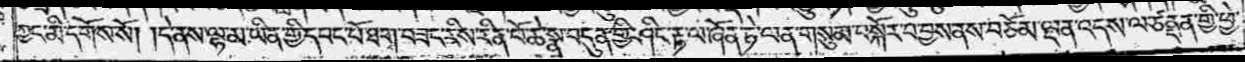ཀྱང་མི་དགོས་སོ། །དེ་ནས་ལྷ་མ་ཡིན་གྱི་དབང་པོ་ཐག་བཟང་རིས་རིན་པོ་ཆེ་སྣ་བདུན་གྱི་ཤིང་རྟ་ལ་ཞོན་ཏེ་ལན་གསུམ་བསྐོར་བ་བྱས་ནས་བཅོམ་ལྡན་འདས་ལ་ཙནྡན་གྱི་ཕྱེ་
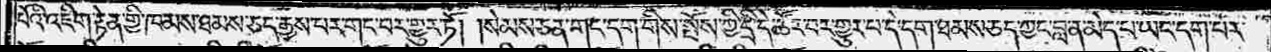པོའི་འཇིག་རྟེན་གྱི་ཁམས་ཐམས་ཅད་རྒྱས་པར་གང་བར་གྱུར་ཏོ། །སེམས་ཅན་གང་དག་གིས་སྤོས་ཀྱི་དྲི་དེ་ཚོར་བར་གྱུར་པ་དེ་དག་ཐམས་ཅད་ཀྱང་བླ་ན་མེད་པ་ཡང་དག་པར་
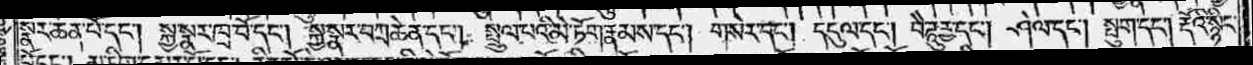སྣར་ཆེན་པོ་དང༌། སྐྱ་སྣར་ཁྲ་བོ་དང༌། སྐྱ་སྣར་བཀྲ་ཆེན་དང༌། སྤྲུལ་པའི་མེ་ཏོག་རྣམས་དང༌། གསེར་དང༌། དངུལ་དང༌། བཻ་ཌཱུཪྻ་དང༌། ཤེལ་དང༌། སྤུག་དང༌། རྡོའི་སྙིང་
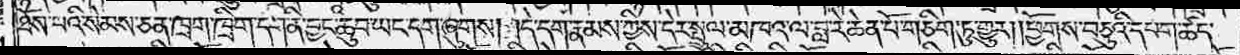ཐོས་པའི་སེམས་ཅན་ཁྲག་ཁྲིག་དག་ནི་བྱང་ཆུབ་ཡང་དག་ཞུགས། །དེ་དག་རྣམས་ཀྱིས་དེར་སྤྲུལ་མཁའ་ལ་བླ་རེ་ཆེན་པོ་གཅིག་ཏུ་གྱུར། །ཕྱོགས་བཅུའི་དཔག་ཚད་
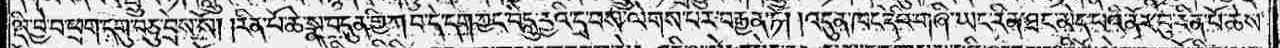ལྡི་བྱེ་བ་ཕྲག་དགུ་བཅུ་བྲེས་སོ། །རིན་པོ་ཆེ་སྣ་བདུན་གྱི་ཀ་བ་དེ་དག་ཀྱང་བཻ་དཱུརྱའི་དྲ་བས་ལེགས་པར་བརྒྱན་ཏེ། །འདུན་ཁང་དེའི་གཞི་ཡང་རིན་ཐང་མེད་པའི་ནོར་བུ་རིན་པོ་ཆེས་
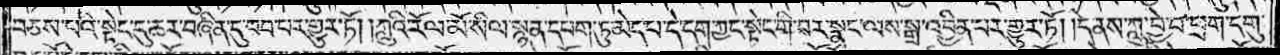བཅས་པའི་སྟེང་དུ་ཆར་བཞིན་དུ་བབ་པར་གྱུར་ཏོ། །ཀླུའི་རོལ་མོ་སིལ་སྙན་དཔག་ཏུ་མེད་པ་དེ་དག་ཀྱང་སྟེང་གི་བར་སྣང་ལས་སྒྲ་འབྱིན་པར་གྱུར་ཏོ། །དེ་ནས་ཀླུ་བྱེ་བ་ཕྲག་དགུ་
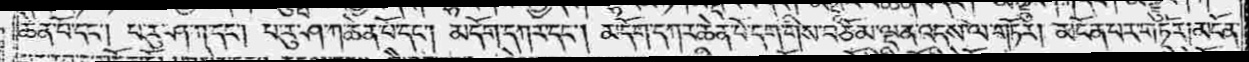ཆེན་པོ་དང༌། པ་རུ་ཤ་ཀ་དང༌། པ་རུ་ཤ་ཀ་ཆེན་པོ་དང༌། མདོག་དཀར་དང༌། མདོག་དཀར་ཆེན་པོ་དག་གིས་བཅོམ་ལྡན་འདས་ལ་གཏོར། མངོན་པར་གཏོར། མངོན་
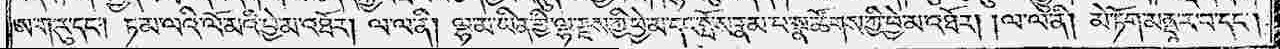ཨ་ག་རུ་དང༌། ཏ་མ་ལའི་ལོ་མའི་བྱེ་མ་འཐོར། ལ་ལ་ནི། ལྷ་མ་ཡིན་གྱི་ལྷ་རྫས་ཀྱི་ཕྱེ་མ་དང་སྤོས་རྣམ་པ་སྣ་ཚོགས་ཀྱི་ཕྱེ་མ་འཐོར། །ལ་ལ་ནི། མེ་ཏོག་མནྡཱ་ར་བ་དང༌།
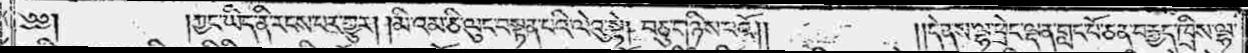༄༅༎ཀྱང་ཡིད་ནི་རངས་པར་གྱུར། །མི་འམ་ཅི་ལུང་བསྟན་པའི་ལེའུ་སྟེ། བཅུ་གཉིས་པའོ༎༎དེ་ནས་ལྷ་ཕྲེང་ལྡན་གླང་པོ་ཅན་བརྒྱད་ཁྲིས་ལྷ་
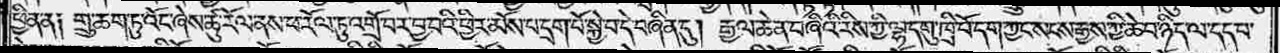ཕྱིན་ན༑ གྲུ་ཆག་ཏུ་འོང་ཞེས་ཚུ་རོལ་ནས་ཕ་རོལ་ཏུ་འགྲོ་བར་བྱ་བའི་ཕྱིར་མོས་པ་དྲག་པོ་སྐྱེ་བ་དེ་བཞིན་དུ། རྒྱལ་ཆེན་བཞིའི་རིས་ཀྱི་ལྷ་དགུ་ཁྲི་པོ་དག་ཀྱང་སངས་རྒྱས་ཀྱི་ཆེ་བ་ཉིད་ལ་དད་པ་
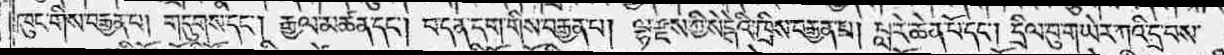ཁུང་གིས་བརྒྱན་པ། གདུགས་དང༌། རྒྱལ་མཚན་དང༌། བ་དན་དག་གིས་བརྒྱན་པ། ལྷ་རྫས་ཀྱི་སེངྒེའི་ཁྲིས་བརྒྱན་པ། བླ་རེ་ཆེན་པོ་དང༌། དྲིལ་བུ་གཡེར་ཀའི་དྲ་བས་
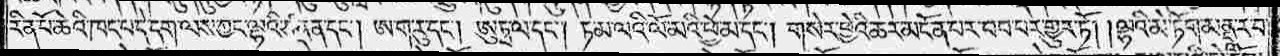རིན་པོ་ཆེའི་ཁང་པ་དེ་དག་ལས་ཀྱང་ལྷའི་ཙནྡན་དང༌། ཨ་ག་རུ་དང༌། ཨུཏྤ་ལ་དང༌། ཏ་མ་ལའི་ལོ་མའི་ཕྱེ་མ་དང༌། གསེར་ཕྱེའི་ཆར་མངོན་པར་བབ་པར་གྱུར་ཏོ། །ལྷའི་མེ་ཏོག་མནྡཱ་ར་བ་
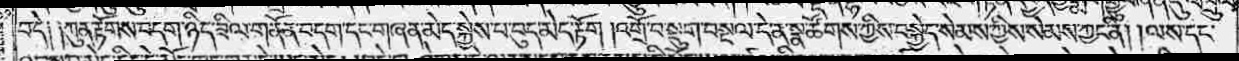བ་དེ༑ ༑ཀུན་རྟོགས་བདག་ཉིད་ཟིལ་གནོན་བདག་དང་གཞན་མེད་སྐྱེས་པ་བུད་མེད་རྟོག །འགྲོ་བ་སྡུག་བསྔལ་དེ་ན་སྣ་ཚོགས་ཀྱིས་བསྐྱེད་སེམས་ཀྱིས་སེམས་ཀྱང་ནི། །ལས་དང་
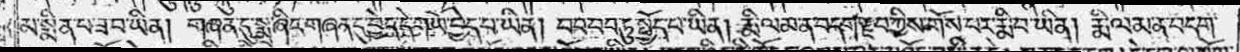མ་སྨིན་པ་ཟ་བ་ཡིན། གཞན་དུ་སྨྲ་ཞིང་གཞན་དུ་བྱེད་དེ་གཡོ་བྱེད་པ་ཡིན། བབ་བབ་ཏུ་སྤྱོད་པ་ཡིན། རྨི་ལམ་ན་བདག་རྫབ་ཀྱིས་གོས་པར་རྨི་བ་ཡིན། རྨི་ལམ་ན་བདག་
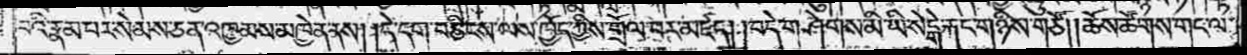བའི་རྣམ་པར་སེམས་ཅན་འཁྱམས་མཁྱེན་ནས། །དེ་དག་བཅིངས་ལས་ཁྱོད་ཀྱིས་གྲོལ་བར་མཛད། །བདེ་གཤེགས་མི་ཡི་སེངྒེ་རྐང་གཉིས་གཙོ། །ཆོས་ཚོགས་གང་ལ་
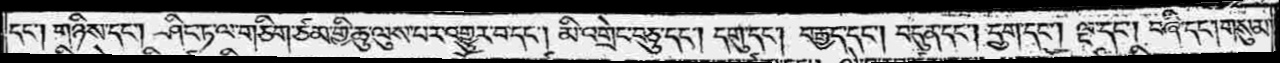དང༌། གཉིས་དང༌། ཤིང་ཏ་ལ་གཅིག་ཙམ་གྱི་ཆུ་ལུས་པར་འགྱུར་བ་དང༌། མི་འགྲེང་བཅུ་དང༌། དགུ་དང༌། བརྒྱད་དང༌། བདུན་དང༌། དྲུག་དང༌། ལྔ་དང༌། བཞི་དང༌། གསུམ་
